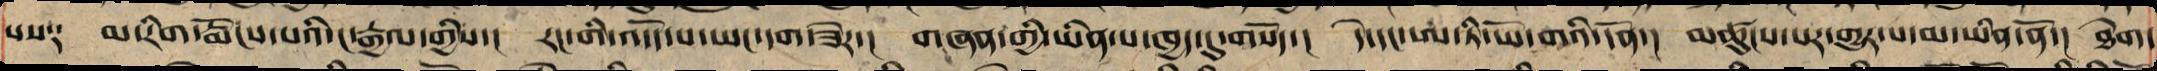པས༑ མ་རིག་རྨོངས་པའི་ང་རྒྱལ་གྱིས་། རང་གི་འདོད་པ་ཡང་དག་ཟེར་། གཞན་གྱི་ཡིན་པ་ཁྱད་དུ་གསོད་། དེ་དང་ཨ་ཏི་ཡོ་གའི་དོན་། མཚུངས་པར་གྱུར་པ་མ་ཡིན་ནོ་། ཐེག་
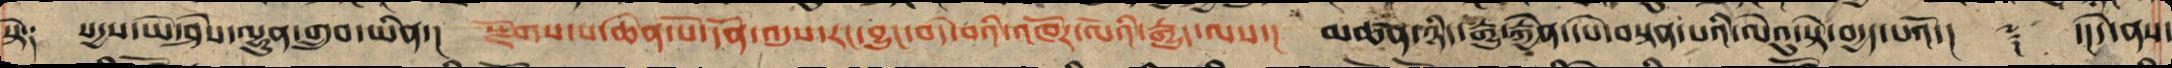སྟེ༑ སདྱས་ཡེ་ཤེས་ལྷུན་གྲུབ་ཡིན་། སྫོགས་པ་ཆེན་པོ་དོན་འདུས་རང་བྱུང་བདེ་བའི་འཁོར་ལོའི་རྒྱུད་ལས་། མཚན་ཉིད་རྒྱུ་རྐྱེན་དཔེ་བསྟན་པའི་ལེའུ་སྟེ་བརྒྱད་པའོ་།།  ༈  ་།།དེ་ནས་
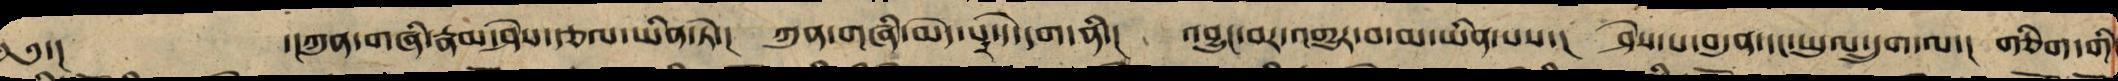༄༅་། ་།ཀུན་གཞི་རྣམ་ཤེས་རྩལ་ཡིན་ཏེ་།  ཀུན་གཞི་མེད་པར་དེ་དག་ནི་།  འབྱུང་བར་འགྱུར་བ་མ་ཡིན་པས་།  ཤེས་པ་བདུན་དང་ཡུལ་དྲུག་ལ་།  གཅིག་གི
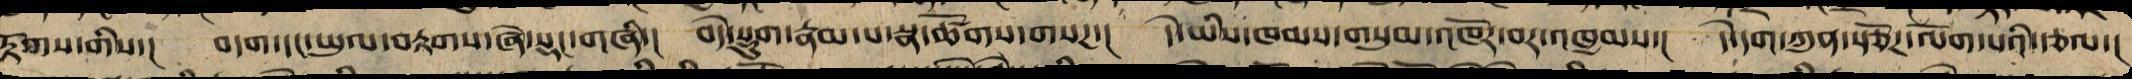རྟོགས་གིས་། བདག་དང་ཡུལ་བརྟགས་ཞེ་སྡང་གཞི་། བདེ་སྡུག་རྣམ་པ་སྣ་ཚོགས་བསཌ་། དེ་ཡིས་ཁམས་གསུམ་འཁོར་བར་འཁྱམས་། དེ་དག་ཀུན་སྩོཌ་ལོག་པའི་རྩལ་།
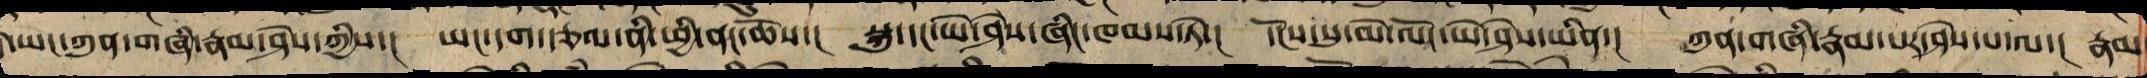དེ་ཡང་ཀུན་གཞི་རྣམ་ཤེས་གྱིས་། ཡང་དག་རྩལ་ནི་ཕྱི་ནང་ཆོས་། སྐུ་དང་ཡེ་ཤེས་ཞིང་ཁམས་ཏེ་། དངོས་སུ་མེ་ལོང་ཡེ་ཤེས་ཡིན་། ཀུན་གཞི་རྣམ་པར་ཤེས་པ་ལ་། རྣམ
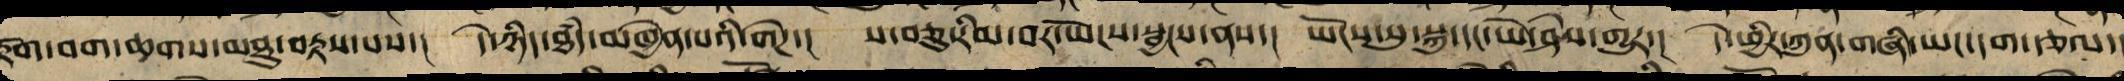རྟོག་བག་ཆགས་མཐུ་བརྟས་པས་།  དེ་ཉིད་ཐཾད་མཁྱེན་པའི་གེཌ་།  ས་བཅུ་རིམ་པར་ཡོངས་སྦྱངས་ནས་།  ཡོངས་སུ་སྐུ་དང་ཡེ་ཤེས་གྱུར་།  དེ་ཕྱིར་ཀུན་གཞི་ཡང་དག་རྩལ་།
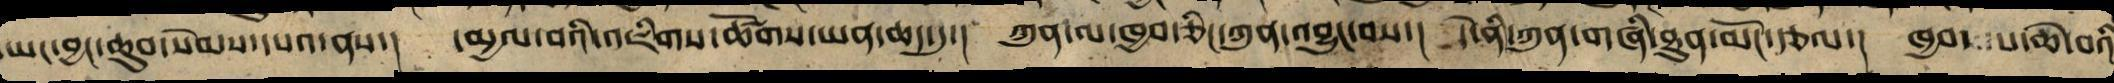ཡང་བྱང་ཆུབ་སེམས་དཔའ་ནས་།  དམྱལ་བའི་འཇིག་ཚོགས་ཡན་ཆད་དུ་།  ཀུན་ལ་ཁྱབ་ཅིང་ཀུན་འབྱུང་བས་།  དེ་ནི་ཀུན་གཞི་ཐུན་མོང་རྩལ་།  ཁྱབ་པ་ཆེ་བའི
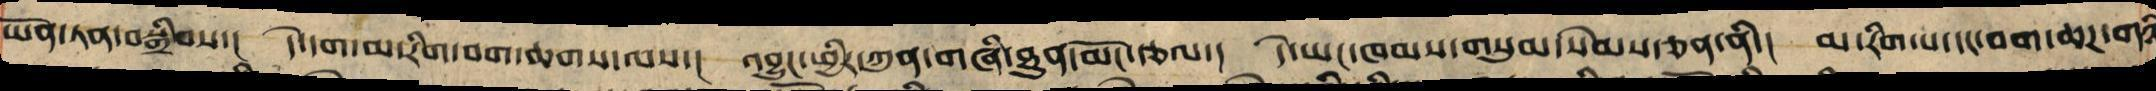ཡོན་ཏན་བསྒྲིབས་།  དེ་དག་མ་རིག་བག་ཆགས་ལས་།  བྱུང་ཕྱིར་ཀུན་གཞི་ཐུན་མོང་རྩལ་།  དེ་ཡང་ཁམས་གསུམ་སེམས་ཅན་ནི་།  མ་རིག་པ་དང་བག་ཆཌ་གཉི
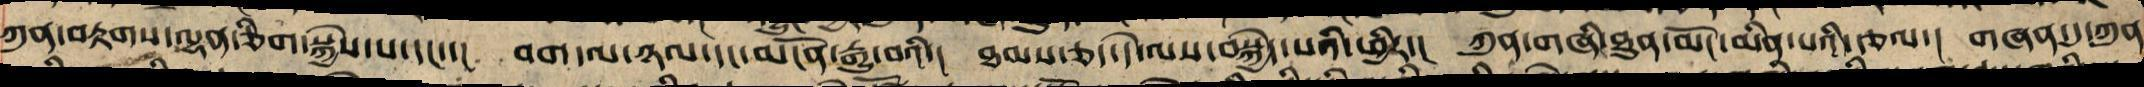ཀུན་བརྟགས་ལྷན་ཅིག་སྐྱེས་པ་དང་་། བག་ལ་ཉལ་དང་མངོན་རྒྱུ་བའི་། ཐམས་ཅད་དེ་ལས་བསྐྱེད་པའི་ཕྱིར་། ཀུན་གཞི་ཐུན་མོང་མིན་པའི་རྩལ་། གཞན་དུ་ཀུན
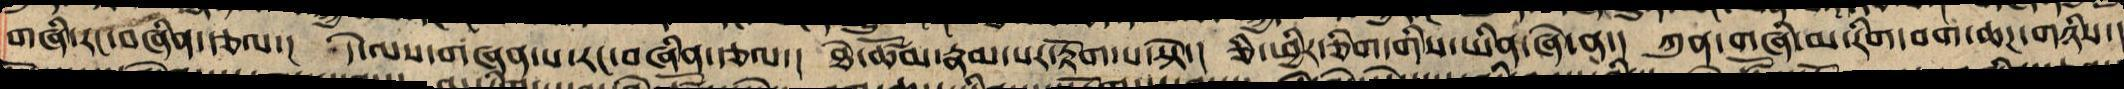གཞི་རང་བཞིན་རྩལ་།  དེ་ལས་གཞན་པ་རང་བཞིན་རྩལ་།  ཐེ་ཚོམ་རྣམ་པར་རྟོག་པ་སྟེ་།  ཅི་ཕྱིར་གཅིག་གིས་ཡིན་ཞེ་ན་།  ཀུན་གཞི་མ་རིག་བག་ཆཌ་གཉིས་།
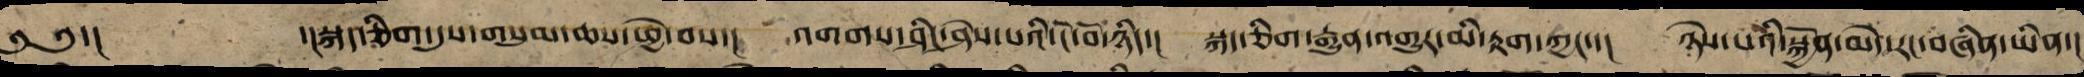༄༅་།  ་།སྐད་ཅིག་དུས་གསུམ་ཆས་ཕྱེ་བས་།  འགགས་ཤིང་ཤེས་པའི་ངོ་བོ་ཉིད་།  སྐད་ཅིག་རྒྱུན་འགྱུར་མི་རྟག་ཀྱང་་།  ཉེས་པའི་སྐྱོན་མེད་རང་བཞིན་ཡིན་།
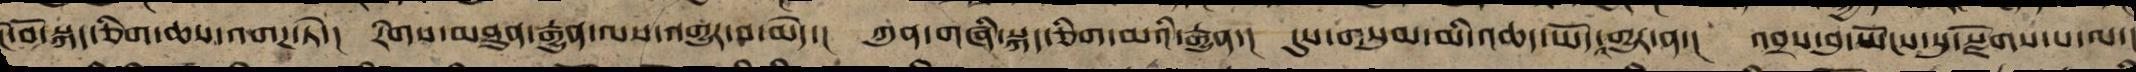ངོ་བོ་སྐད་ཅིག་ཆས་འགཌ་ཏེ་། རིགས་མཐུན་རྒྱུན་ལས་འགྱུར་བ་མེད་། ཀུན་གཞི་སྐད་ཅིག་མའི་རྒྱུན་། དུས་གསུམ་མི་འཆད་ཡོད་གྱུར་ན་། འབྲས་བུ་ཡོངས་སུ་སྫོགས་པ་ལ་
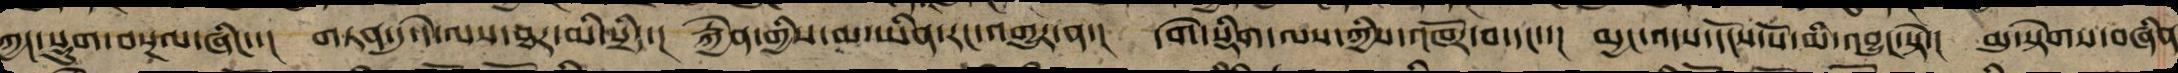ཀྱང་སྡུག་བསྔལ་ཞིང་་། གཏན་དུ་དེ་ལས་ཐར་མི་སྲིད་། རྐྱེན་གྱིས་མ་ཡིན་རང་འགྱུར་ན་། དགེ་སྡིག་ལས་ཀྱིས་འཁོར་བ་དང་་། མྱང་འདས་དངོས་པོ་མི་འབྱུང་སྟེ་། མུ་སྟེགས་བཞིན
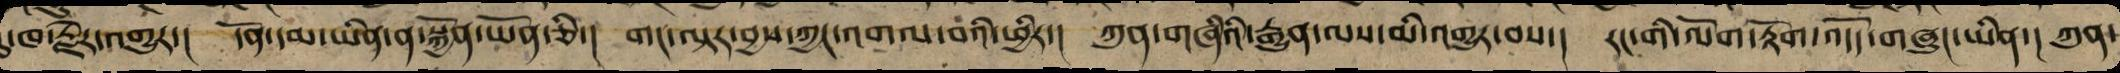དུ་ཁར་རྗེར་འགྱུར་། དོན་དམ་ཡིན་ན་སྐྱོན་ཡོན་ཅི་། གང་ལྟར་གནས་ཀྱང་འགལ་བའི་ཕྱིར་། ཀུན་གཞིའི་རྒྱུན་ལས་མི་འགྱུར་བས་། རང་གི་ལོག་རྟོག་འདོད་གཞུང་ཡིན་། ཀུན་
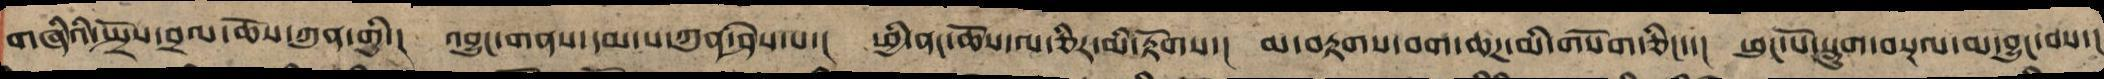གཞིའི་སྤྲོས་བྲལ་ཆོས་ཀུན་གྱི་། འབྱུང་གནས་དམ་པ་ཀུན་ཤེས་པས་། ཕྱི་ནང་ཆོས་ལ་ཅིར་མི་རྟོག། མ་བརྟགས་བག་ཆཌ་མི་གསོག་ཅིང་་། ཕུང་པོ་སྡུག་བསྔལ་མ་བྱུང་བས་།
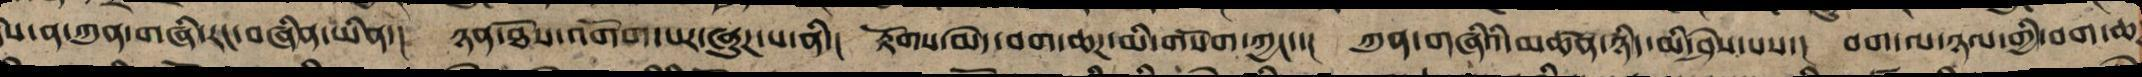དེས་ན་ཀུན་གཞི་རང་བཞིན་ཡིན་། ཉན་ཐོས་འགོག་པར་ཞུཌ་པ་ནི་། རྟོགས་མེད་བག་ཆཌ་མི་གསོག་ཀྱང་་། ཀུན་གཞིའི་མཚན་ཉིད་མི་ཤེས་པས་། བག་ལ་ཉལ་གྱི་བག་ཆཌ
